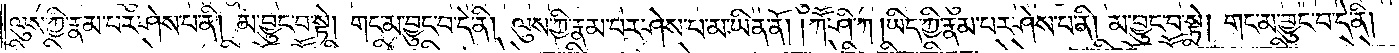ལུས་ཀྱི་རྣམ་པར་ཤེས་པ་ནི། མ་བྱུང་བ་སྟེ། གང་མ་བྱུང་བ་དེ་ནི། ལུས་ཀྱི་རྣམ་པར་ཤེས་པ་མ་ཡིན་ནོ། །ཀཽ་ཤི་ཀ །ཡིད་ཀྱི་རྣམ་པར་ཤེས་པ་ནི། མ་བྱུང་བ་སྟེ། གང་མ་བྱུང་བ་དེ་ནི།
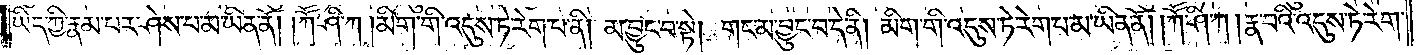ཡིད་ཀྱི་རྣམ་པར་ཤེས་པ་མ་ཡིན་ནོ། །ཀཽ་ཤི་ཀ །མིག་གི་འདུས་ཏེ་རེག་པ་ནི། མ་བྱུང་བ་སྟེ། གང་མ་བྱུང་བ་དེ་ནི། མིག་གི་འདུས་ཏེ་རེག་པ་མ་ཡིན་ནོ། །ཀཽ་ཤི་ཀ །རྣ་བའི་འདུས་ཏེ་རེག་
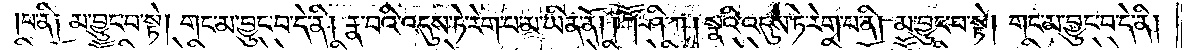པ་ནི། མ་བྱུང་བ་སྟེ། གང་མ་བྱུང་བ་དེ་ནི། རྣ་བའི་འདུས་ཏེ་རེག་པ་མ་ཡིན་ནོ། །ཀཽ་ཤི་ཀ །སྣའི་འདུས་ཏེ་རེག་པ་ནི། མ་བྱུང་བ་སྟེ། གང་མ་བྱུང་བ་དེ་ནི།
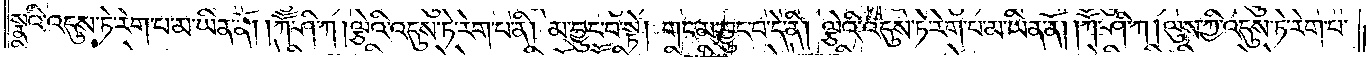སྣའི་འདུས་ཏེ་རེག་པ་མ་ཡིན་ནོ། །ཀཽ་ཤི་ཀ །ལྕེའི་འདུས་ཏེ་རེག་པ་ནི། མ་བྱུང་བ་སྟེ། གང་མ་བྱུང་བ་དེ་ནི། ལྕེའི་འདུས་ཏེ་རེག་པ་མ་ཡིན་ནོ། །ཀཽ་ཤི་ཀ །ལུས་ཀྱི་འདུས་ཏེ་རེག་པ་
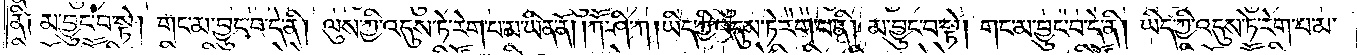ནི༑ མ་བྱུང་བ་སྟེ། གང་མ་བྱུང་བ་དེ་ནི། ལུས་ཀྱི་འདུས་ཏེ་རེག་པ་མ་ཡིན་ནོ། །ཀཽ་ཤི་ཀ །ཡིད་ཀྱི་འདུས་ཏེ་རེག་པ་ནི། མ་བྱུང་བ་སྟེ། གང་མ་བྱུང་བ་དེ་ནི། ཡིད་ཀྱི་འདུས་ཏེ་རེག་པ་མ་
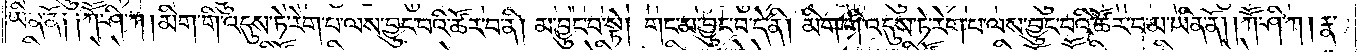ཡིན་ནོ། །ཀཽ་ཤི་ཀ །མིག་གི་འདུས་ཏེ་རེག་པ་ལས་བྱུང་བའི་ཚོར་བ་ནི། མ་བྱུང་བ་སྟེ། གང་མ་བྱུང་བ་དེ་ནི། མིག་གི་འདུས་ཏེ་རེག་པ་ལས་བྱུང་བའི་ཚོར་བ་མ་ཡིན་ནོ། །ཀཽ་ཤི་ཀ །རྣ་
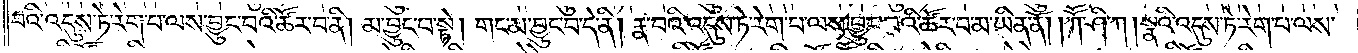བའི་འདུས་ཏེ་རེག་པ་ལས་བྱུང་བའི་ཚོར་བ་ནི། མ་བྱུང་བ་སྟེ། གང་མ་བྱུང་བ་དེ་ནི། རྣ་བའི་འདུས་ཏེ་རེག་པ་ལས་བྱུང་བའི་ཚོར་བ་མ་ཡིན་ནོ། །ཀཽ་ཤི་ཀ །སྣའི་འདུས་ཏེ་རེག་པ་ལས་
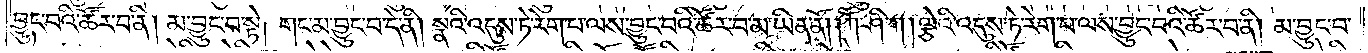བྱུང་བའི་ཚོར་བ་ནི། མ་བྱུང་བ་སྟེ། གང་མ་བྱུང་བ་དེ་ནི། སྣའི་འདུས་ཏེ་རེག་པ་ལས་བྱུང་བའི་ཚོར་བ་མ་ཡིན་ནོ། །ཀཽ་ཤི་ཀ །ལྕེའི་འདུས་ཏེ་རེག་པ་ལས་བྱུང་བའི་ཚོར་བ་ནི། མ་བྱུང་བ་
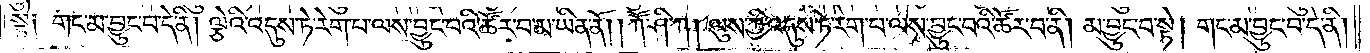སྟེ༑ གང་མ་བྱུང་བ་དེ་ནི། ལྕེའི་འདུས་ཏེ་རེག་པ་ལས་བྱུང་བའི་ཚོར་བ་མ་ཡིན་ནོ། །ཀཽ་ཤི་ཀ །ལུས་ཀྱི་འདུས་ཏེ་རེག་པ་ལས་བྱུང་བའི་ཚོར་བ་ནི། མ་བྱུང་བ་སྟེ། གང་མ་བྱུང་བ་དེ་ནི།
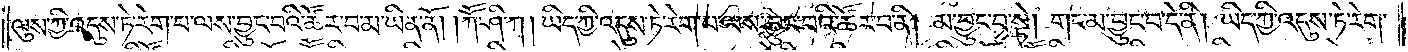ལུས་ཀྱི་འདུས་ཏེ་རེག་པ་ལས་བྱུང་བའི་ཚོར་བ་མ་ཡིན་ནོ། ཀཽ་ཤི་ཀ །ཡིད་ཀྱི་འདུས་ཏེ་རེག་པ་ལས་བྱུང་བའི་ཚོར་བ་ནི། མ་བྱུང་བ་སྟེ། གང་མ་བྱུང་བ་དེ་ནི། ཡིད་ཀྱི་འདུས་ཏེ་རེག་
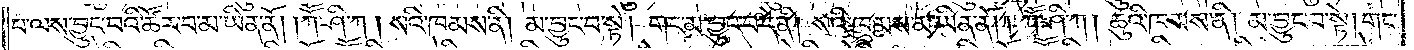པ་ལས་བྱུང་བའི་ཚོར་བ་མ་ཡིན་ནོ། །ཀཽ་ཤི་ཀ །སའི་ཁམས་ནི། མ་བྱུང་བ་སྟེ། གང་མ་བྱུང་བ་དེ་ནི་།སའི་ཁམས་མ་ཡིན་ནོ། །ཀོ་ཤི་ཀ །ཆུའི་ཁམས་ནི། མ་བྱུང་བ་སྟེ། གང་
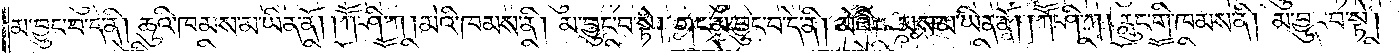མ་བྱུང་བ་དེ་ནི། ཆུའི་འཁམས་མ་ཡིན་ནོ། །ཀཽ་ཤི་ཀ །མེའི་ཁམས་ནི། མ་བྱུང་བ་སྟེ། གང་མ་བྱུང་བ་དེ་ནི། མེའི་ཁམས་མ་ཡིན་ནོ། །ཀཽ་ཤི་ཀ །རླུང་གི་ཁམས་ནི། མ་བྱུང་བ་སྟེ།
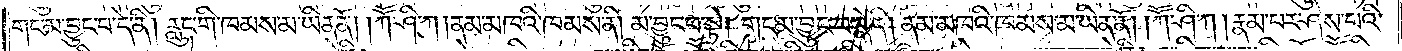གང་མ་བྱུང་བ་དེ་ནི། རླུང་གི་ཁམས་མ་ཡིན་ནོ། །ཀཽ་ཤི་ཀ །ནམ་མཁའི་ཁམས་ནི། མ་བྱུང་བ་སྟེ། གང་མ་བྱུང་བ་དེ་ནི། ནམ་མཁའི་ཁམས་མ་ཡིན་ནོ། །ཀཽ་ཤི་ཀ །རྣམ་པར་ཤེས་པའི་
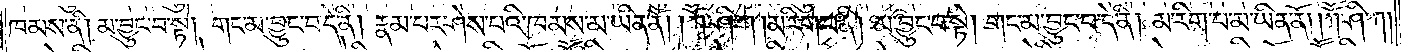ཁམས་ནི། མ་བྱུང་བ་སྟེ། གང་མ་བྱུང་བ་དེ་ནི། རྣམ་པར་ཤེས་པའི་ཁམས་མ་ཡིན་ནོ། །ཀཽ་ཤི་ཀ །མ་རིག་པ་ནི། མ་བྱུང་བ་སྟེ། གང་མ་བྱུང་བ་དེ་ནི། མ་རིག་པ་མ་ཡིན་ནོ། །ཀཽ་ཤི་ཀ།
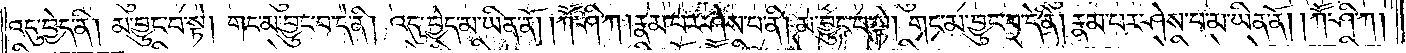འདུ་བྱེད་ནི། མ་བྱུང་བ་སྟེ། གང་མ་བྱུང་བ་དེ་ནི་འདུ་བྱེད་མ་ཡིན་ནོ། །ཀཽ་ཤི་ཀ །རྣམ་པར་ཤེས་པ་ནི། མ་བྱུང་བ་སྟེ། གང་མ་བྱུང་བ་དེ་ནི། རྣམ་པར་ཤེས་པ་མ་ཡིན་ནོ། །ཀཽ་ཤི་ཀ།
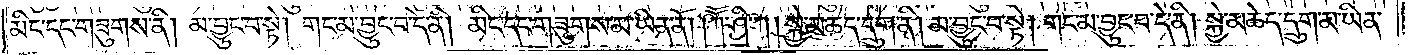མིང་དང་གཟུགས་ནི། མ་བྱུང་བ་སྟེ། གང་མ་བྱུང་བ་དེ་ནི། མིང་དང་གཟུགས་མ་ཡིན་ནོ། །ཀཽ་ཤི་ཀ །སྐྱེ་མཆེད་དྲུག་ནི། མ་བྱུང་བ་སྟེ། གང་མ་བྱུང་བ་དེ་ནི། སྐྱེ་མཆེད་དྲུག་མ་ཡིན་
